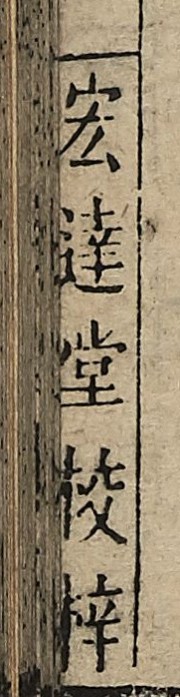宏達堂校梓
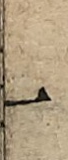一
